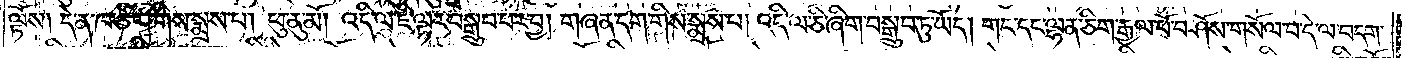ལྟོས། དེ་ན་ཁ་ཅིག་གིས་སྨྲས་པ། ཕུ་ནུ་མོ། འདི་ལ་ཇི་ལྟར་བསྒྲུབ་པར་བྱ། གཞན་དག་གིས་སྨྲས་པ། འདི་ལ་ཅི་ཞིག་བསྒྲུབ་ཏུ་ཡོད། གང་དང་ལྷན་ཅིག་རྒྱལ་པོ་བཤོས་གསོལ་བ་དེ་ལ་བདག་
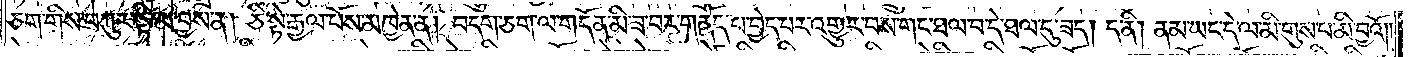ཅག་གིས་བཀུར་སྟི་མ་བྱས་ན། ཅི་སྟེ་རྒྱལ་པོས་མཁྱེན་ན། བདག་ཅག་ལ་གདོན་མི་ཟ་བར་གནོད་པ་བྱེད་པར་འགྱུར་བས་གང་ཐལ་བ་དེ་ཐལ་དུ་ཟད། ད་ནི། ནམ་ཡང་དེ་ལ་མི་གུས་པ་མི་བྱའོ། །
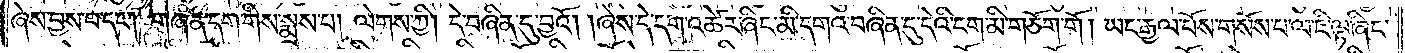ཞེས་བྱས་པ་དང༌། གཞན་དག་གིས་སྨྲས་པ། ལེགས་ཀྱི། དེ་བཞིན་དུ་བྱའོ། །ཞེས་དེ་དག་འཚེར་ཞིང་མི་དགའ་བཞིན་དུ་དེའི་ངག་མི་གཅོག་གོ །ཡང་རྒྱལ་པོས་གསོས་པ་ལ་ཇི་ལྟ་ཞིང་
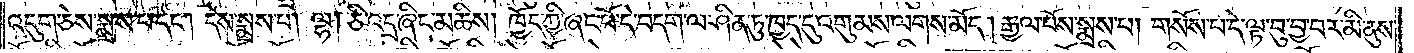འདུག་ཅེས་སྨྲས་པ་དང༌། དེས་སྨྲས་པ། ལྷ། ཅི་འདྲ་ཞིང་མཆིས། ཁྱོད་ཀྱི་ཞང་པོ་དེ་བདག་ལ་ཤིན་ཏུ་ཁྱད་དུ་འགུམས་ལགས་མོད། རྒྱལ་པོས་སྨྲས་པ། གསོས་པ་དེ་ལྟ་བུ་བྱ་བར་མི་ནུས་
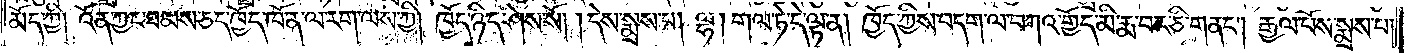མོད་ཀྱི། འོན་ཀྱང་ཐམས་ཅད་ཁྱོད་ཁོ་ན་ལ་རག་ལས་ཀྱི། ཁྱོད་ཉིད་ཤེས་སོ། །དེས་སྨྲས་པ། ལྷ། གལ་ཏེ་དེ་ལྟ་ན། ཁྱོད་ཀྱིས་བདག་ལ་བཀའ་གྱོད་མི་རྨ་བར་ཅི་གནང༌། རྒྱལ་པོས་སྨྲས་པ་
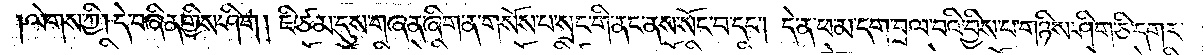ལེགས་ཀྱི། དེ་བཞིན་གྱིས་ཤིག །ཇི་ཙམ་དུས་གཞན་ཞིག་ན་གསོས་པ་སྲང་གི་ནང་ནས་སོང་བ་དང༌། དེ་ན་ཕ་མ་དག་བྲལ་བའི་བྱིས་པ་གཉིས་ཤིག་ཅི་དགར་
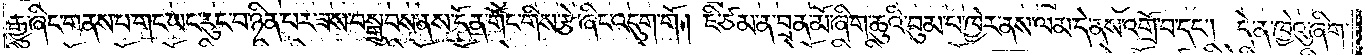རྒྱུ་ཞིང་གནས་པ་གང་ཡང་རུང་བ་ཉིན་པར་ཟས་བསྒྲུབས་ནས་དོན་གོང་གིས་རྩེ་ཞིང་འདུག་གོ །ཇི་ཙམ་ན་བྲན་མོ་ཞིག་ཆུའི་བུམ་པ་ཁྱེར་ནས་ལམ་དེ་ནས་འགྲོ་བ་དང༌། དེ་ན་ཁྱེའུ་ཞིག་
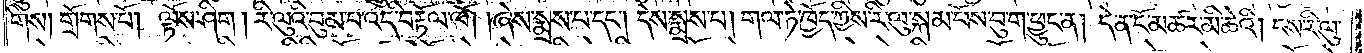གིས། གྲོགས་པོ། ལྟོས་ཤིག །རི་ལུའི་བུམ་པ་འདི་བརྟོལ་ལོ། །ཞེས་སྨྲས་པ་དང༌། དེས་སྨྲས་པ། གལ་ཏེ་ཁྱོད་ཀྱིས་རི་ལུ་སྐམ་པོས་བུ་ག་ཕྱུང་ན། དེ་ན་ངོ་མཚར་མི་ཆེའི། ངས་རི་ལུ་
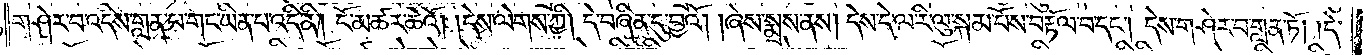གཤེར་བ་འདིས་གླན་པ་གང་ཡིན་པ་འདི་ནི། ངོ་མཚར་ཆེའོ། །དེས་ལེགས་ཀྱི། དེ་བཞིན་དུ་བྱའོ། །ཞེས་སྨྲས་ནས། དེས་དེ་ལ་རི་ལུ་སྐམ་པོས་བརྟོལ་བ་དང༌། དེས་གཤེར་བ་གླན་ཏོ། །དེ་
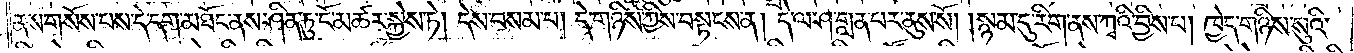ནས་གསོས་པས་དེ་དག་མཐོང་ནས་ཤིན་ཏུ་ངོ་མཚར་སྐྱེས་ཏེ། དེས་བསམ་པ། དེ་གཉིས་ཀྱིས་བསྟངས་ན། དེ་ལ་ཤ་གླན་པར་ནུས་སོ། །སྙམ་དུ་རིག་ནས་ཀྭའི་བྱིས་པ། ཁྱེད་གཉིས་སུའི་
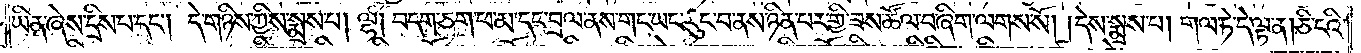ཡིན་ཞེས་དྲིས་པ་དང༌། དེ་གཉིས་ཀྱིས་སྨྲས་པ། ལྷ། བདག་ཅག་ཕ་མ་དང་བྲལ་ནས་གང་ཡང་རུང་བ་ནས་ཉིན་པར་གྱི་ཟས་ཚོལ་བ་ཞིག་ལགས་སོ། །དེས་སྨྲས་པ། གལ་ཏེ་དེ་ལྟ་ན། ཅི་ངའི་
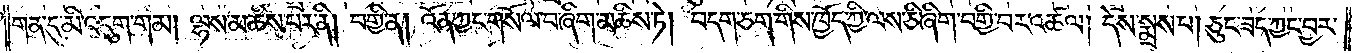གན་དུ་མི་འདུག་གམ། ལྷས་མཆིས་པར་ནི། བགྱི་ན། འོན་ཀྱང་གསོལ་བ་ཞིག་མཆིས་ཏེ། བདག་ཅག་གིས་ཁྱོད་ཀྱི་ལས་ཅི་ཞིག་བགྱི་བར་འཚལ། དེས་སྨྲས་པ། ཅུང་ཟད་ཀྱང་བྱར་
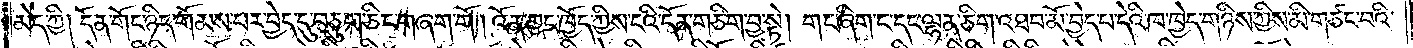མེད་ཀྱི། དོན་གོང་ཉིད་གོམས་པར་བྱེད་དུ་བཅུག་ཅིང་གཞག་གོ །འོན་ཀྱང་ཁྱོད་ཀྱིས་ངའི་དོན་གཅིག་བྱ་སྟེ། གང་ཞིག་ང་དང་ལྷན་ཅིག་འཐབ་མོ་བྱེད་པ་དེའི་ཁ་ཁྱེད་གཉིས་ཀྱིས་མི་གཙང་བའི་
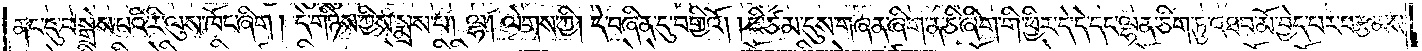ནང་དུ་བསྒྲེས་པའི་རི་ལུས་ཁོང་ཞིག །དེ་གཉིས་ཀྱིས་སྨྲས་པ། ལྷ། ལེགས་ཀྱི། དེ་བཞིན་དུ་བགྱིའོ། །ཇི་ཙམ་དུས་གཞན་ཞིག་ན་ཅི་ཞིག་གི་ཕྱིར་དེ་དེ་དང་ལྷན་ཅིག་ཏུ་འཐབ་མོ་བྱེད་པར་བརྩམས་
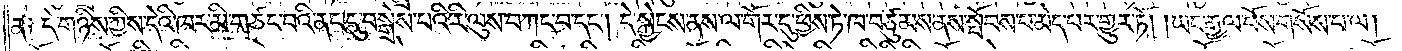ན༑ དེ་གཉིས་ཀྱིས་དེའི་ཁར་མི་གཙང་བའི་ནང་དུ་བསྒྲེས་པའི་རི་ལུས་བཀང་བ་དང༌། དེ་སྐྱེངས་ནས་ལ་གོར་དུ་ཕྱིས་ཏེ་ཁ་བཙུམས་ནས་སྤོབས་པ་མེད་པར་གྱུར་ཏོ། །ཡང་རྒྱལ་པོས་གསོས་པ་ལ།
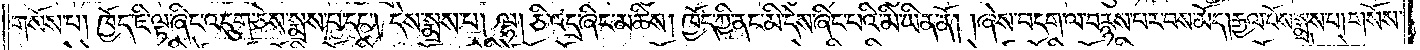གསོས་པ། ཁྱོད་ཇི་ལྟ་ཞིང་འདུག་ཅེས་སྨྲས་པ་དང༌། དེས་སྨྲས་པ། ལྷ། ཅི་འདྲ་ཞིང་མཆིས། ཁྱོད་ཀྱི་ནང་མི་དེས་ཞིང་པའི་མི་ཡིན་ནོ། །ཞེས་བདག་ལ་བརྙས་པར་བས་མོད། རྒྱལ་པོས་སྨྲས་པ། གསོས་
